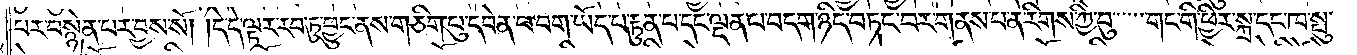པར་བསྙེན་པར་བྱས་སོ། །དེ་དེ་ལྟར་རབ་ཏུ་ཕྱུང་ནས་གཅིག་པུ་དབེན་པ་བག་ཡོད་པ་རྟུན་པ་དང་ལྡན་པ་བདག་ཉིད་བཏང་བར་གནས་པ་ན་རིགས་ཀྱི་བུ་གང་གི་ཕྱིར་སྐྲ་དང་ཁ་སྤུ་
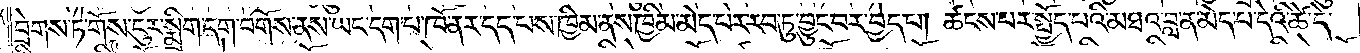བྲེགས་ཏེ་གོས་ངུར་སྨྲིག་དག་བགོས་ནས་ཡང་དག་པ་ཁོ་ནར་དད་པས་ཁྱིམ་ནས་ཁྱིམ་མེད་པར་རབ་ཏུ་བྱུང་བར་བྱེད་པ། ཚངས་པར་སྤྱོད་པའི་མཐའ་བླ་ན་མེད་པ་དེའི་ཚེ་དེ་
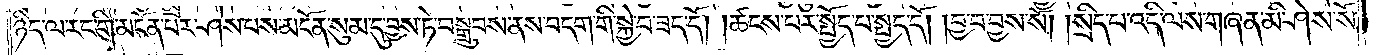ཉིད་ལ་རང་གི་མངོན་པར་ཤེས་པས་མངོན་སུམ་དུ་བྱས་ཏེ་བསྒྲུབས་ནས་བདག་གི་སྐྱེ་བ་ཟད་དོ། །ཚངས་པར་སྤྱོད་པ་སྤྱད་དོ། །བྱ་བ་བྱས་སོ། །སྲིད་པ་འདི་ལས་གཞན་མི་ཤེས་སོ་
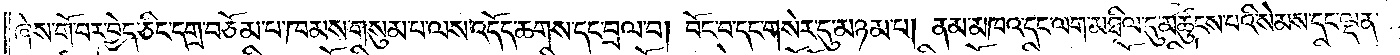ཞེས་གོ་བར་བྱེད་ཅིང་དགྲ་བཅོམ་པ་ཁམས་གསུམ་པ་ལས་འདོད་ཆགས་དང་བྲལ་བ། བོང་བ་དང་གསེར་དུ་མཉམ་པ། ནམ་མཁའ་དང་ལག་མཐིལ་དུ་མཚུངས་པའི་སེམས་དང་ལྡན་
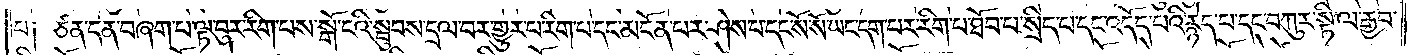པ༑ ཙན་དན་བཞག་པ་ལྟ་བུར་རིག་པས་སྒོ་ངའི་སྦུབས་དྲལ་བར་གྱུར་པ་རིག་པ་དང་མངོན་པར་ཤེས་པ་དང་སོ་སོ་ཡང་དག་པར་རིག་པ་ཐོབ་པ་སྲིད་པ་དང་འདོད་པའི་རྙེད་པ་དང་བཀུར་སྟི་ལ་རྒྱབ་
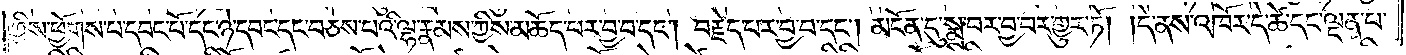ཀྱིས་ཕྱོགས་པ་དབང་པོ་དང་ཉེ་དབང་དང་བཅས་པའི་ལྷ་རྣམས་ཀྱིས་མཆོད་པར་བྱ་བ་དང༌། བརྗེད་པར་བྱ་བ་དང༌། མངོན་དུ་སྨྲ་བར་བྱ་བར་གྱུར་ཏོ། །དེ་ནས་འཁོར་དེ་ཚེ་དང་ལྡན་པ་
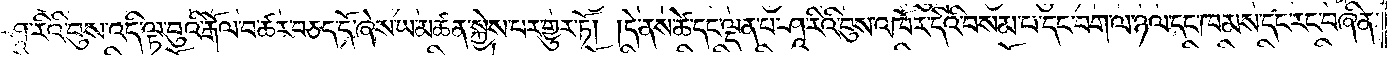ཤཱ་རིའི་བུས་འདི་ལྟ་བུའི་རྒོལ་བ་ཚར་བཅད་དོ་ཞེས་ཡ་མཚན་སྐྱེས་པར་གྱུར་ཏོ། །དེ་ནས་ཚེ་དང་ལྡན་པ་ཤཱ་རིའི་བུས་འཁོར་དེའི་བསམ་པ་དང་བག་ལ་ཉལ་དང་ཁམས་དང་རང་བཞིན་
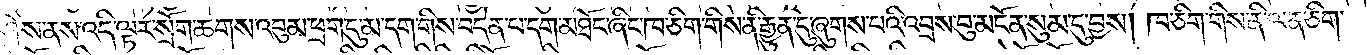ཤེས་ནས་འདི་ལྟར་སྲོག་ཆགས་འབུམ་ཕྲག་དུ་མ་དག་གིས་བདེན་པ་དག་མཐོང་ཞིང་ཁ་ཅིག་གིས་ནི་རྒྱུན་དུ་ཞུགས་པའི་འབྲས་བུ་མངོན་སུམ་དུ་བྱས། ཁ་ཅིག་གིས་ནི་ལན་ཅིག་
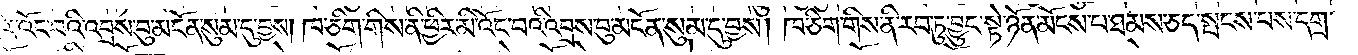ཕྱིར་འོང་བའི་འབྲས་བུ་མངོན་སུམ་དུ་བྱས། ཁ་ཅིག་གིས་ནི་ཕྱིར་མི་འོང་བའི་འབྲས་བུ་མངོན་སུམ་དུ་བྱས། ཁ་ཅིག་གིས་ནི་རབ་ཏུ་བྱུང་སྟེ་ཉོན་མོངས་པ་ཐམས་ཅད་སྤངས་པས་དགྲ་
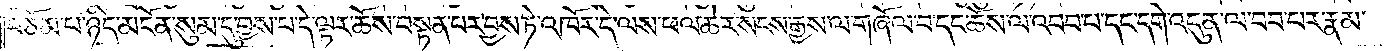བཅོམ་པ་ཉིད་མངོན་སུམ་དུ་བྱས་པ་དེ་ལྟར་ཆོས་བསྟན་པར་བྱས་ཏེ་འཁོར་དེ་ལས་ཕལ་ཆེར་སངས་རྒྱས་ལ་གཞོལ་པ་དང་ཆོས་ལ་འབབ་པ་དང་དགེ་འདུན་ལ་བབ་པར་རྣམ་
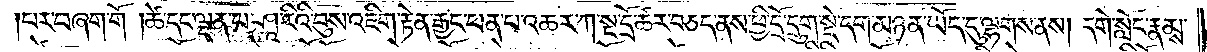པར་བཞག་གོ །ཚེ་དང་ལྡན་པ་ཤཱ་རིའི་བུས་འཇིག་རྟེན་རྒྱང་ཕན་པ་འཆར་ཀ་སྔ་དྲོ་ཚར་བཅད་ནས་ཕྱི་དྲོ་དྲུག་སྡེ་དག་མཉན་ཡོད་དུ་ལྷགས་ནས། དགེ་སློང་རྣམས་
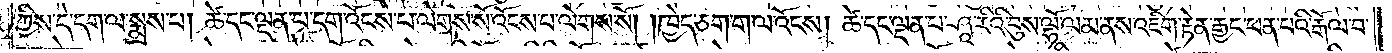ཀྱིས་དེ་དག་ལ་སྨྲས་པ། ཚེ་དང་ལྡན་པ་དག་འོངས་པ་ལེགས་སོ་འོངས་པ་ལེགས་སོ། །ཁྱེད་ཅག་ག་ལ་འོངས། ཚེ་དང་ལྡན་པ་ཤཱ་རིའི་བུས་ལྷོ་ལམ་ནས་འཇིག་རྟེན་རྒྱང་ཕན་པའི་རྒོལ་བ་
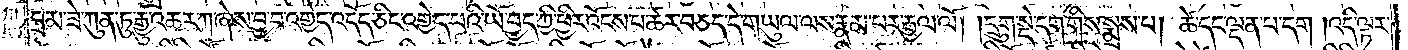བྲམ་ཟེ་ཀུན་ཏུ་རྒྱུ་འཆར་ཀ་ཞེས་བྱ་བ་འགྱེད་འདོད་ཅིང་འགྱེད་པའི་ཡོ་བྱད་ཀྱི་ཕྱིར་འོངས་པ་ཚར་བཅད་དེ་གཡུལ་ལས་རྣམ་པར་རྒྱལ་ལོ། །དྲུག་སྡེ་དག་གིས་སྨྲས་པ། ཚེ་དང་ལྡན་པ་དག །འདི་ལྟར་
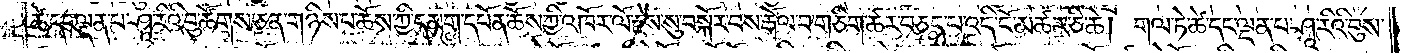ཚེ་དང་ལྡན་པ་ཤཱ་རིའི་བུ་ཚོགས་ཅན་གཉིས་པ་ཆོས་ཀྱི་དམག་དཔོན་ཆོས་ཀྱི་འཁོར་ལོ་རྗེས་སུ་བསྐོར་བས་རྒོལ་བ་གཅིག་ཚར་བཅད་པ་འདི་ངོ་མཚར་ཅི་ཆེ། གལ་ཏེ་ཚེ་དང་ལྡན་པ་ཤཱ་རིའི་བུས་
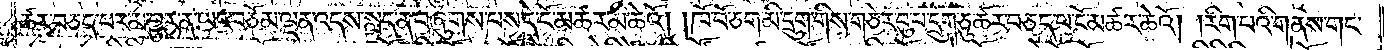ཚར་བཅད་པར་མ་གྱུར་ན་ཡང་བཅོམ་ལྡན་འདས་སླད་ན་བཞུགས་པས་དེ་ངོ་མཚར་མི་ཆེའོ། །ཁོ་བོ་ཅག་མི་དྲུག་གིས་གཅེར་བུ་པ་དྲུག་ཅུ་ཚར་བཅད་པ་ངོ་མཚར་ཆེའོ། །རིག་པའི་གནས་གང་
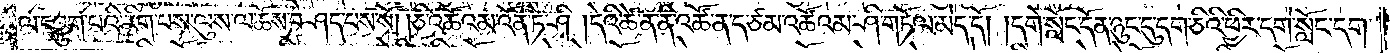ལ་དབྱུག་པའི་རིག་པས་ལུས་ལ་ཆོས་བཤད་པས་སོ། །ཅི་འཚོའམ་འོན་ཏེ་ཤི་།དེའི་ཚེ་ན་ནི་འཚོ་ན་ད་ཙམ་འཚོའམ་ཤི་གཏོལ་མེད་དོ། །དགེ་སློང་དོན་ཉུང་དུ་དག་ཅིའི་ཕྱིར་དགེ་སློང་དག་
